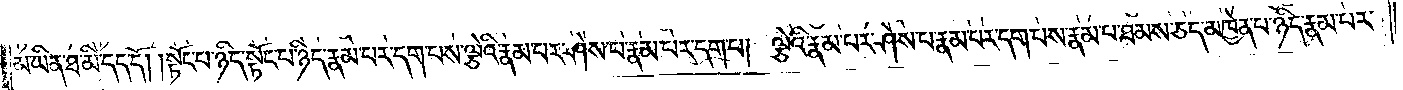མ་ཡིན་ཐ་མི་དད་དོ། །སྟོང་པ་ཉིད་སྟོང་པ་ཉིད་རྣམ་པར་དག་པས་ལྕེའི་རྣམ་པར་ཤེས་པ་རྣམ་པར་དག་པ། ལྕེའི་རྣམ་པར་ཤེས་པ་རྣམ་པར་དག་པས་རྣམ་པ་ཐམས་ཅད་མཁྱེན་པ་ཉིད་རྣམ་པར་
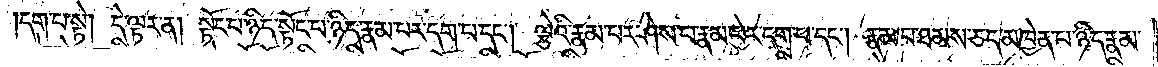དག་པ་སྟེ། དེ་ལྟར་ན། སྟོང་པ་ཉིད་སྟོང་པ་ཉིད་རྣམ་པར་དག་པ་དང༌། ལྕེའི་རྣམ་པར་ཤེས་པ་རྣམ་པར་དག་པ་དང༌། རྣམ་པ་ཐམས་ཅད་མཁྱེན་པ་ཉིད་རྣམ་
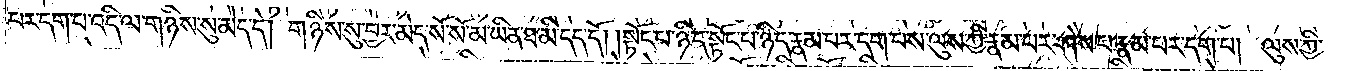པར་དག་པ་འདི་ལ་གཉིས་སུ་མེད་དེ། གཉིས་སུ་བྱར་མེད་སོ་སོ་མ་ཡིན་ཐ་མི་དད་དོ། །སྟོང་པ་ཉིད་སྟོང་པ་ཉིད་རྣམ་པར་དག་པས་ལུས་ཀྱི་རྣམ་པར་ཤེས་པ་རྣམ་པར་དག་པ། ལུས་ཀྱི་
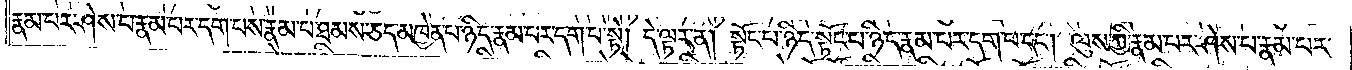རྣམ་པར་ཤེས་པ་རྣམ་པར་དག་པས་རྣམ་པ་ཐམས་ཅད་མཁྱེན་པ་ཉིད་རྣམ་པར་དག་པ་སྟེ། དེ་ལྟར་ན། སྟོང་པ་ཉིད་སྟོང་པ་ཉིད་རྣམ་པར་དག་པ་དང༌། ལུས་ཀྱི་རྣམ་པར་ཤེས་པ་རྣམ་པར་
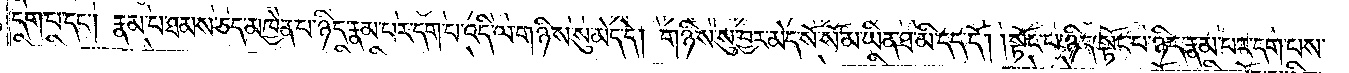དག་པ་དང༌། རྣམ་པ་ཐམས་ཅད་མཁྱེན་པ་ཉིད་རྣམ་པར་དག་པ་འདི་ལ་གཉིས་སུ་མེད་དེ། གཉིས་སུ་བྱར་མེད་སོ་སོ་མ་ཡིན་ཐ་མི་དད་དོ། །སྟོང་པ་ཉིད་སྟོང་པ་ཉིད་རྣམ་པར་དག་པས་
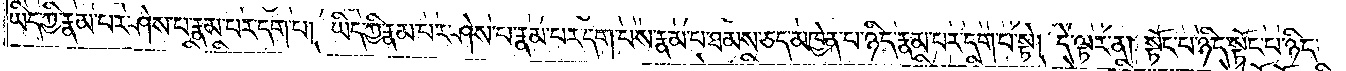ཡིད་ཀྱི་རྣམ་པར་ཤེས་པ་རྣམ་པར་དག་པ། ཡིད་ཀྱི་རྣམ་པར་ཤེས་པ་རྣམ་པར་དག་པས་རྣམ་པ་ཐམས་ཅད་མཁྱེན་པ་ཉིད་རྣམ་པར་དག་པ་སྟེ། དེ་ལྟར་ན། སྟོང་པ་ཉིད་སྟོང་པ་ཉིད་
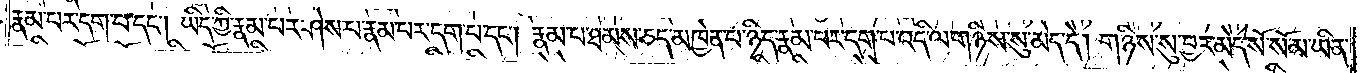རྣམ་པར་དག་པ་དང༌། ཡིད་ཀྱི་རྣམ་པར་ཤེས་པ་རྣམ་པར་དག་པ་དང༌། རྣམ་པ་ཐམས་ཅད་མཁྱེན་པ་ཉིད་རྣམ་པར་དག་པ་འདི་ལ་གཉིས་སུ་མེད་དེ། གཉིས་སུ་བྱར་མེད་སོ་སོ་མ་ཡིན་
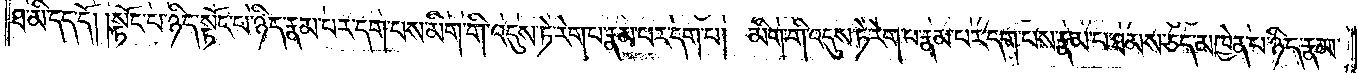ཐ་མི་དད་དོ། །སྟོང་པ་ཉིད་སྟོང་པ་ཉིད་རྣམ་པར་དག་པས་མིག་གི་འདུས་ཏེ་རེག་པ་རྣམ་པར་དག་པ། མིག་གི་འདུས་ཏེ་རེག་པ་རྣམ་པར་དག་པས་རྣམ་པ་ཐམས་ཅད་མཁྱེན་པ་ཉིད་རྣམ་
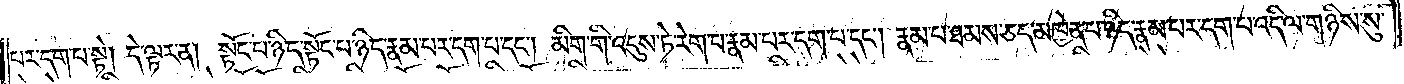པར་དག་པ་སྟེ། དེ་ལྟར་ན། སྟོང་པ་ཉིད་སྟོང་པ་ཉིད་རྣམ་པར་དག་པ་དང༌། མིག་གི་འདུས་ཏེ་རེག་པ་རྣམ་པར་དག་པ་དང༌། རྣམ་པ་ཐམས་ཅད་མཁྱེན་པ་ཉིད་རྣམ་པར་དག་པ་འདི་ལ་གཉིས་སུ་
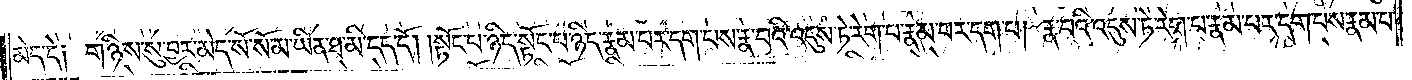མེད་དེ། གཉིས་སུ་བྱར་མེད་སོ་སོ་མ་ཡིན་ཐ་མི་དད་དོ། །སྟོང་པ་ཉིད་སྟོང་པ་ཉིད་རྣམ་པར་དག་པས་རྣ་བའི་འདུས་ཏེ་རེག་པ་རྣམ་པར་དག་པ། རྣ་བའི་འདུས་ཏེ་རེག་པ་རྣམ་པར་དག་པས་རྣམ་པ་
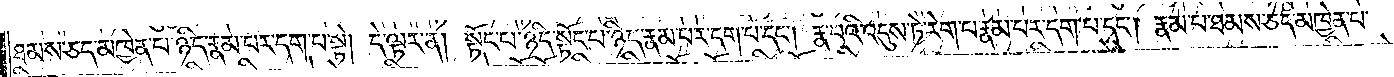ཐམས་ཅད་མཁྱེན་པ་ཉིད་རྣམ་པར་དག་པ་སྟེ། དེ་ལྟར་ན། སྟོང་པ་ཉིད་སྟོང་པ་ཉིད་རྣམ་པར་དག་པ་དང༌། རྣ་བའི་འདུས་ཏེ་རེག་པ་རྣམ་པར་དག་པ་དང༌། རྣམ་པ་ཐམས་ཅད་མཁྱེན་པ་
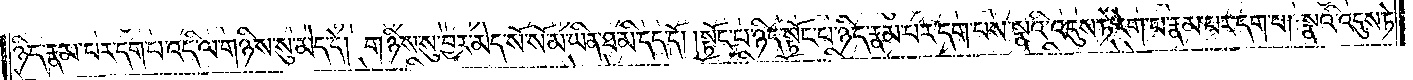ཉིད་རྣམ་པར་དག་པ་འདི་ལ་གཉིས་སུ་མེད་དེ། གཉིས་སུ་བྱར་མེད་སོ་སོ་མ་ཡིན་ཐ་མི་དད་དོ། །སྟོང་པ་ཉིད་སྟོང་པ་ཉིད་རྣམ་པར་དག་པས་སྣའི་འདུས་ཏེ་རེག་པ་རྣམ་པར་དག་པ། སྣའི་འདུས་ཏེ་
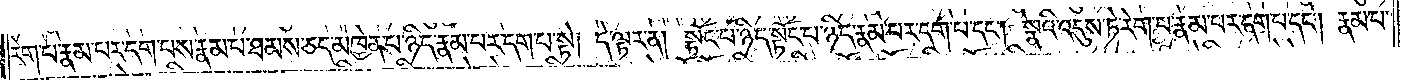རེག་པ་རྣམ་པར་དག་པས་རྣམ་པ་ཐམས་ཅད་མཁྱེན་པ་ཉིད་རྣམ་པར་དག་པ་སྟེ། དེ་ལྟར་ན། སྟོང་པ་ཉིད་སྟོང་པ་ཉིད་རྣམ་པར་དག་པ་དང༌། སྣའི་འདུས་ཏེ་རེག་པ་རྣམ་པར་དག་པ་དང༌། རྣམ་པ་
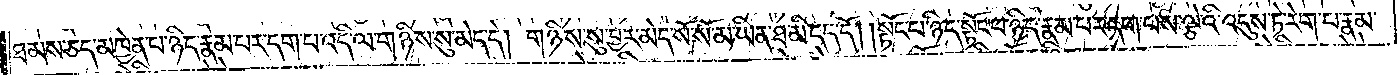ཐམས་ཅད་མཁྱེན་པ་ཉིད་རྣམ་པར་དག་པ་འདི་ལ་གཉིས་སུ་མེད་དེ། གཉིས་སུ་བྱར་མེད་སོ་སོ་མ་ཡིན་ཐ་མི་དད་དོ། །སྟོང་པ་ཉིད་སྟོང་པ་ཉིད་རྣམ་པར་དག་པས་ལྕེའི་འདུས་ཏེ་རེག་པ་རྣམ་
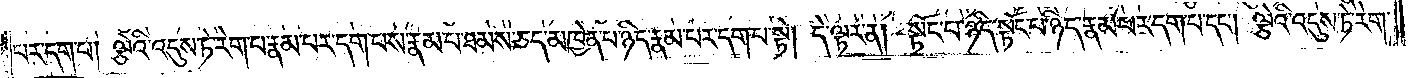པར་དག་པ། ལྕེའི་འདུས་ཏེ་རེག་པ་རྣམ་པར་དག་པས་རྣམ་པ་ཐམས་ཅད་མཁྱེན་པ་ཉིད་རྣམ་པར་དག་པ་སྟེ། དེ་ལྟར་ན། སྟོང་པ་ཉིད་སྟོང་པ་ཉིད་རྣམ་པར་དག་པ་དང༌། ལྕེའི་འདུས་ཏེ་རེག་
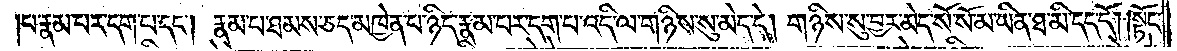པ་རྣམ་པར་དག་པ་དང༌། རྣམ་པ་ཐམས་ཅད་མཁྱེན་པ་ཉིད་རྣམ་པར་དག་པ་འདི་ལ་གཉིས་སུ་མེད་དེ། གཉིས་སུ་བྱར་མེད་སོ་སོ་མ་ཡིན་ཐ་མི་དད་དོ། །སྟོང་
